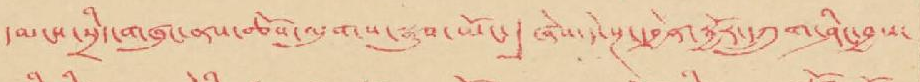དམངས་སྲིད་གཞུང་ནས་ཆོས་ལུགས་སྒྲུབ་ཡོང་」 ཞེས་དེ་སྔ་དབྱེན་སྦྱོར་དཀྲུག་ཤིང་བྱས་
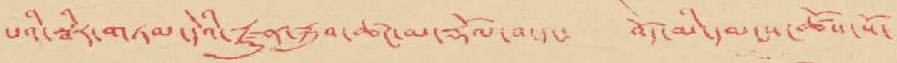པའི་སྦིར་གཏམ་དེའི་རྫུན་རྐུབ་ཚང་མ་རྡོལ་བ་དང་ བོད་མི་དམངས་ཚོས་སོ་
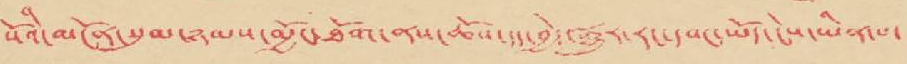སོའི་མངོན་སུམ་ཉམས་མྱོང་ཐོག་ནས་ཆོས་དད་བྱེད་རྒྱུར་རང་དབང་ཡོད་ངེས་ཡིན་པ་
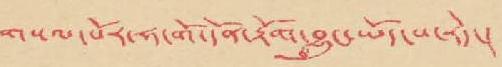གསལ་པོར་ཧ་གོ་དོན་རྟོགས་བྱུང་ཡོད་པ་རེད་།
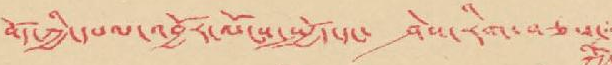བོད་ཀྱི་དཔལ་འབྱོར་ལོངས་སྤྱོད་དང་ ཤེས་རིག་བཅས་
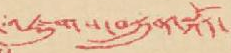འཛུགས་བསྐྲུན་སྐོར་
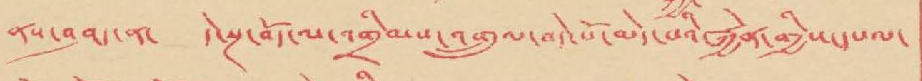ནས་བཤད་ན་ དེ་སྔ་བོད་ལ་འགྲིམས་འགྲུལ་བདེ་པོ་མེད་པའི་རྐྱེན་གྱིས་དཔལ་
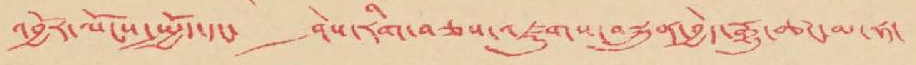འབྱོར་ལོངས་སྤྱོད་དང་ ཤེས་རིག་བཅས་འཛུགས་བསྐྲུན་བྱེད་རྒྱུ་ཚང་མ་ཧ་
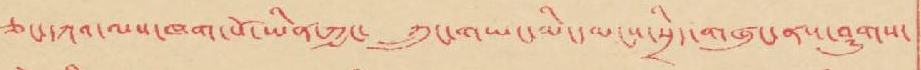ཅང་དཀའ་ལས་ཁག་པོ་ཡིན་ཀྱང་ ཀྲུང་གཡང་མི་དམངས་སྲིད་གཞུང་ནས་ཤུགས་
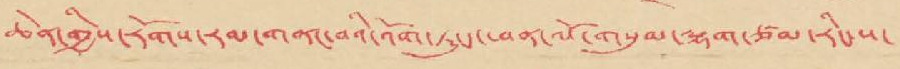ཆེན་གྱིས་རོགས་རམ་གནང་བའི་འོག་ཏུ་ད་ཕན་ལོ་གསུམ་ལྷག་ཙམ་རིང་ས་
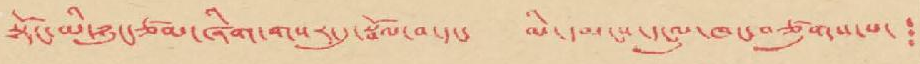སྟོང་མི་ཉུང་ཙམ་ཞིག་གསར་དུ་སྦོལ་བ་དང་ མི་དམངས་དངུལ་ཁང་བཙུགས་པ་
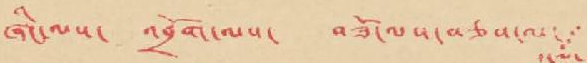ཞིང་ལས་ འབྲོག་ལས་ བཟོ་ལས་བཅས་ལ་
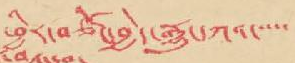ཕྱིར་བཙོང་བྱེད་རྒྱུ་དཀའ་་་་་
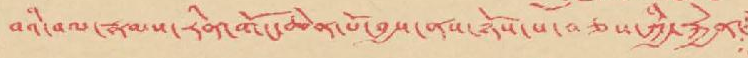བའི་བལ་རྣམས་རིན་གོང་ཆེན་པོ་བྱས་ནས་ཉོས་པ་བཅས་ཀྱི་རྐྱེན་
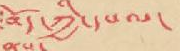བོད་ཀྱི་དཔལ་
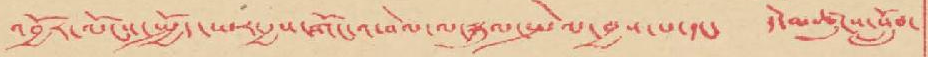འབྱོར་ལོངས་སྤྱོད་ཡར་རྒྱས་གོང་འཕེལ་ལ་སྐུལ་སྤེལ་བྱས་པ་དང་ དེ་མཚུངས་སློབ་
